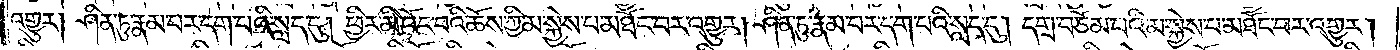འགྱུར། ཤིན་ཏུ་རྣམ་པར་དག་པའི་སླད་དུ། ཕྱིར་མི་འོང་བའི་ཆོས་ཀྱི་མ་སྐྱེས་པ་མཐོང་བར་འགྱུར། ཤིན་ཏུ་རྣམ་པར་དག་པའི་སླད་དུ། དགྲ་བཅོམ་པའི་མ་སྐྱེས་པ་མཐོང་བར་འགྱུར།
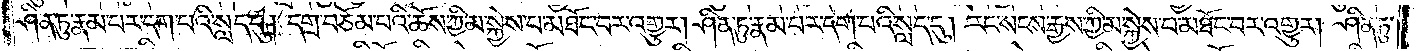ཤིན་ཏུ་རྣམ་པར་དག་པའི་སླད་དུ། དགྲ་བཅོམ་པའི་ཆོས་ཀྱི་མ་སྐྱེས་པ་མཐོང་བར་འགྱུར། ཤིན་ཏུ་རྣམ་པར་དག་པའི་སླད་དུ། རང་སངས་རྒྱས་ཀྱི་མ་སྐྱེས་པ་མཐོང་བར་འགྱུར། ཤིན་ཏུ་
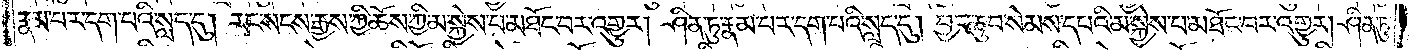རྣམ་པར་དག་པའི་སླད་དུ། རང་སངས་རྒྱས་ཀྱི་ཆོས་ཀྱི་མ་སྐྱེས་པ་མཐོང་བར་འགྱུར། ཤིན་ཏུ་རྣམ་པར་དག་པའི་སླད་དུ། བྱང་ཆུབ་སེམས་དཔའི་མ་སྐྱེས་པ་མཐོང་བར་འགྱུར། ཤིན་ཏུ་
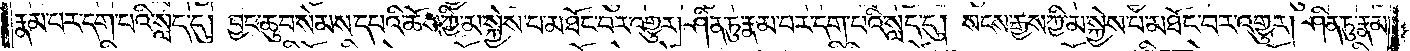རྣམ་པར་དག་པའི་སླད་དུ། བྱང་ཆུབ་སེམས་དཔའི་ཆོས་ཀྱི་མ་སྐྱེས་པ་མཐོང་བར་འགྱུར། ཤིན་ཏུ་རྣམ་པར་དག་པའི་སླད་དུ། སངས་རྒྱས་ཀྱི་མ་སྐྱེས་པ་མཐོང་བར་འགྱུར། ཤིན་ཏུ་རྣམ་
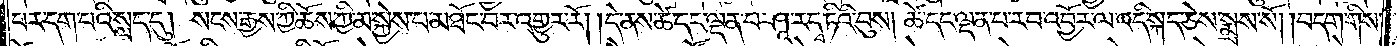པར་དག་པའི་སླད་དུ། སངས་རྒྱས་ཀྱི་ཆོས་ཀྱི་མ་སྐྱེས་པ་མཐོང་བར་འགྱུར་རོ། །དེ་ནས་ཚེ་དང་ལྡན་པ་ཤཱ་ར་དྭ་ཏིའི་བུས། ཚེ་དང་ལྡན་པ་རབ་འབྱོར་ལ་འདི་སྐད་ཅེས་སྨྲས་སོ། །བདག་གིས་
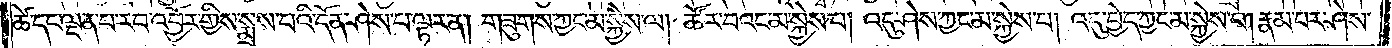ཚེ་དང་ལྡན་པ་རབ་འབྱོར་གྱིས་སྨྲས་པའི་དོན་ཤེས་པ་ལྟར་ན། གཟུགས་ཀྱང་མ་སྐྱེས་ལ། ཚོར་བའང་མ་སྐྱེས་པ། འདུ་ཤེས་ཀྱང་མ་སྐྱེས་པ། འདུ་བྱེད་ཀྱང་མ་སྐྱེས་པ། རྣམ་པར་ཤེས་
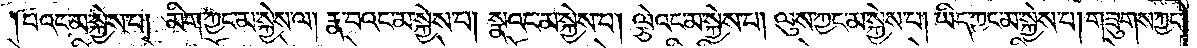པའང་མ་སྐྱེས་པ། མིག་ཀྱང་མ་སྐྱེས་ལ། རྣ་བའང་མ་སྐྱེས་པ། སྣའང་མ་སྐྱེས་པ། ལྕེའང་མ་སྐྱེས་པ། ལུས་ཀྱང་མ་སྐྱེས་པ། ཡིད་ཀྱང་མ་སྐྱེས་པ། གཟུགས་ཀྱང་
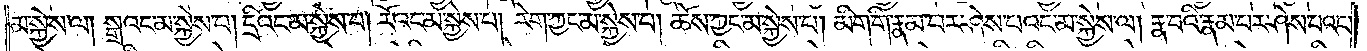མ་སྐྱེས་ལ། སྒྲའང་མ་སྐྱེས་པ། དྲིའང་མ་སྐྱེས་པ། རོའང་མ་སྐྱེས་པ། རེག་ཀྱང་མ་སྐྱེས་པ། ཆོས་ཀྱང་མ་སྐྱེས་པ། མིག་གི་རྣམ་པར་ཤེས་པའང་མ་སྐྱེས་ལ། རྣ་བའི་རྣམ་པར་ཤེས་པའང་
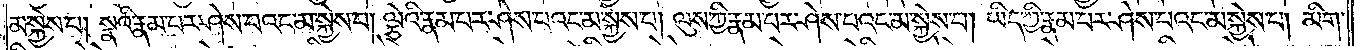མ་སྐྱེས་པ། སྣའི་རྣམ་པར་ཤེས་པའང་མ་སྐྱེས་པ། ལྕེའི་རྣམ་པར་ཤེས་པའང་མ་སྐྱེས་པ། ལུས་ཀྱི་རྣམ་པར་ཤེས་པའང་མ་སྐྱེས་པ། ཡིད་ཀྱི་རྣམ་པར་ཤེས་པའང་མ་སྐྱེས་པ། མིག་
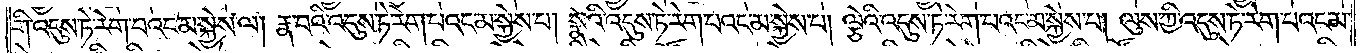གི་འདུས་ཏེ་རེག་པའང་མ་སྐྱེས་ལ། རྣ་བའི་འདུས་ཏེ་རེག་པའང་མ་སྐྱེས་པ། སྣའི་འདུས་ཏེ་རེག་པའང་མ་སྐྱེས་པ། ལྕེའི་འདུས་ཏེ་རེག་པའང་མ་སྐྱེས་པ། ལུས་ཀྱི་འདུས་ཏེ་རེག་པའང་མ་
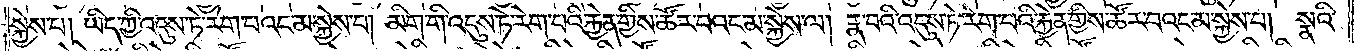སྐྱེས་པ། ཡིད་ཀྱི་འདུས་ཏེ་རེག་པའང་མ་སྐྱེས་པ། མིག་གི་འདུས་ཏེ་རེག་པའི་རྐྱེན་གྱིས་ཚོར་བའང་མ་སྐྱེས་ལ། རྣ་བའི་འདུས་ཏེ་རེག་པའི་རྐྱེན་གྱིས་ཚོར་བའང་མ་སྐྱེས་པ། སྣའི་
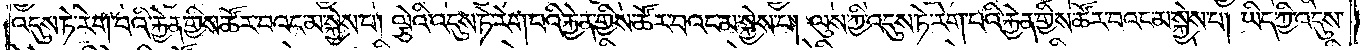འདུས་ཏེ་རེག་པའི་རྐྱེན་གྱིས་ཚོར་བའང་མ་སྐྱེས་པ། ལྕེའི་འདུས་ཏེ་རེག་པའི་རྐྱེན་གྱིས་ཚོར་བའང་མ་སྐྱེས་པ། ལུས་ཀྱི་འདུས་ཏེ་རེག་པའི་རྐྱེན་གྱིས་ཚོར་བའང་མ་སྐྱེས་པ། ཡིད་ཀྱི་འདུས་
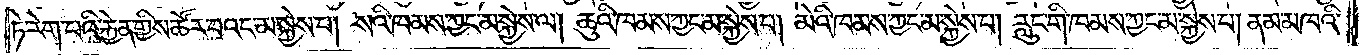ཏེ་རེག་པའི་རྐྱེན་གྱིས་ཚོར་བའང་མ་སྐྱེས་པ། སའི་ཁམས་ཀྱང་མ་སྐྱེས་ལ། ཆུའི་ཁམས་ཀྱང་མ་སྐྱེས་པ། མེའི་ཁམས་ཀྱང་མ་སྐྱེས་པ། རླུང་གི་ཁམས་ཀྱང་མ་སྐྱེས་པ། ནམ་མཁའི་
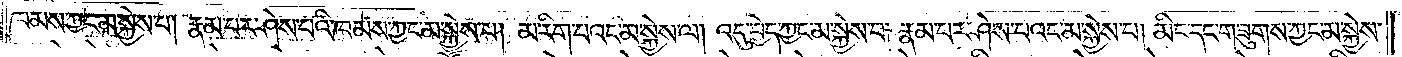ཁམས་ཀྱང་མ་སྐྱེས་པ། རྣམ་པར་ཤེས་པའི་ཁམས་ཀྱང་མ་སྐྱེས་པ། མ་རིག་པའང་མ་སྐྱེས་ལ། འདུ་བྱེད་ཀྱང་མ་སྐྱེས་པ། རྣམ་པར་ཤེས་པའང་མ་སྐྱེས་པ། མིང་དང་གཟུགས་ཀྱང་མ་སྐྱེས་
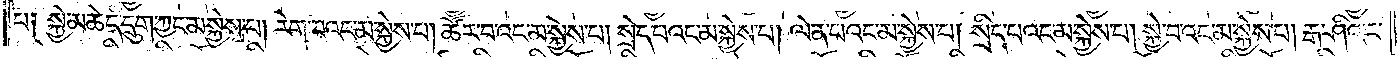པ༏ སྐྱེ་མཆེད་དྲུག་ཀྱང་མ་སྐྱེས་པ། རེག་པའང་མ་སྐྱེས་པ། ཚོར་བའང་མ་སྐྱེས་པ། སྲེད་པའང་མ་སྐྱེས་པ། ལེན་པའང་མ་སྐྱེས་པ། སྲིད་པའང་མ་སྐྱེས་པ། སྐྱེ་བའང་མ་སྐྱེས་པ། རྒ་ཤིའང་
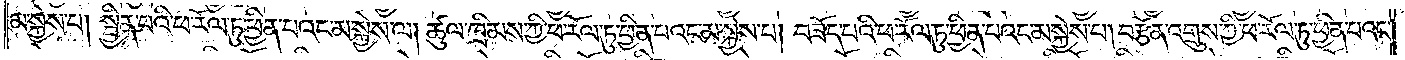མ་སྐྱེས་པ། སྦྱིན་པའི་ཕ་རོལ་ཏུ་ཕྱིན་པའང་མ་སྐྱེས་པ། ཚུལ་ཁྲིམས་ཀྱི་ཕ་རོལ་ཏུ་ཕྱིན་པའང་མ་སྐྱེས་པ། བཟོད་པའི་ཕ་རོལ་ཏུ་ཕྱིན་པའང་མ་སྐྱེས་པ། བརྩོན་འགྲུས་ཀྱི་ཕ་རོལ་ཏུ་ཕྱིན་པའང་
